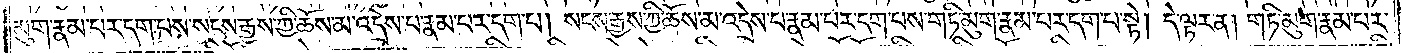མུག་རྣམ་པར་དག་པས་སངས་རྒྱས་ཀྱི་ཆོས་མ་འདྲེས་པ་རྣམ་པར་དག་པ། སངས་རྒྱས་ཀྱི་ཆོས་མ་འདྲེས་པ་རྣམ་པར་དག་པས་གཏི་མུག་རྣམ་པར་དག་པ་སྟེ། དེ་ལྟར་ན། གཏི་མུག་རྣམ་པར་
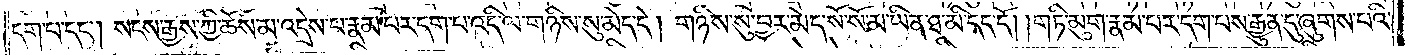དག་པ་དང༌། སངས་རྒྱས་ཀྱི་ཆོས་མ་འདྲེས་པ་རྣམ་པར་དག་པ་འདི་ལ་གཉིས་སུ་མེད་དེ། གཉིས་སུ་བྱར་མེད་སོ་སོ་མ་ཡིན་ཐ་མི་དད་དོ། །གཏི་མུག་རྣམ་པར་དག་པས་རྒྱུན་དུ་ཞུགས་པའི་
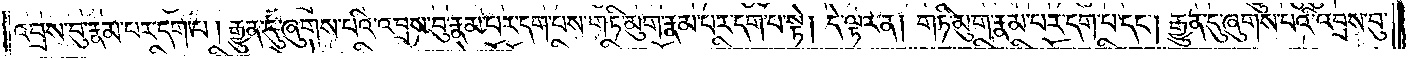འབྲས་བུ་རྣམ་པར་དག་པ། རྒྱུན་དུ་ཞུགས་པའི་འབྲས་བུ་རྣམ་པར་དག་པས་གཏི་མུག་རྣམ་པར་དག་པ་སྟེ། དེ་ལྟར་ན། གཏི་མུག་རྣམ་པར་དག་པ་དང༌། རྒྱུན་དུ་ཞུགས་པའི་འབྲས་བུ་
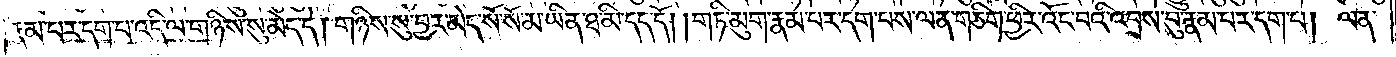རྣམ་པར་དག་པ་འདི་ལ་གཉིས་སུ་མེད་དེ། གཉིས་སུ་བྱར་མེད་སོ་སོ་མ་ཡིན་ཐ་མི་དད་དོ། །གཏི་མུག་རྣམ་པར་དག་པས་ལན་ཅིག་ཕྱིར་འོང་བའི་འབྲས་བུ་རྣམ་པར་དག་པ། ལན་
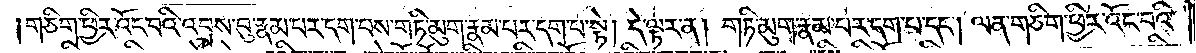གཅིག་ཕྱིར་འོང་བའི་འབྲས་བུ་རྣམ་པར་དག་པས་གཏི་མུག་རྣམ་པར་དག་པ་སྟེ། དེ་ལྟར་ན། གཏི་མུག་རྣམ་པར་དག་པ་དང༌། ལན་གཅིག་ཕྱིར་འོང་བའི་
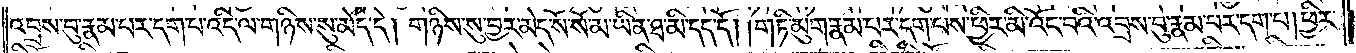འབྲས་བུ་རྣམ་པར་དག་པ་འདི་ལ་གཉིས་སུ་མེད་དེ། གཉིས་སུ་བྱར་མེད་སོ་སོ་མ་ཡིན་ཐ་མི་དད་དོ། །གཏི་མུག་རྣམ་པར་དག་པས་ཕྱིར་མི་འོང་བའི་འབྲས་བུ་རྣམ་པར་དག་པ། ཕྱིར་
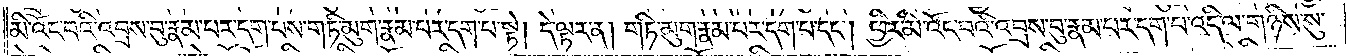མི་འོང་བའི་འབྲས་བུ་རྣམ་པར་དག་པས་གཏི་མུག་རྣམ་པར་དག་པ་སྟེ། དེ་ལྟར་ན། གཏི་མུག་རྣམ་པར་དག་པ་དང༌། ཕྱིར་མི་འོང་བའི་འབྲས་བུ་རྣམ་པར་དག་པ་འདི་ལ་གཉིས་སུ་
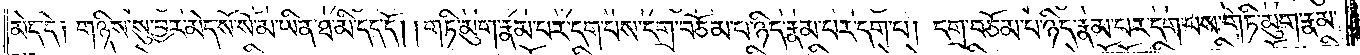མེད་དེ༑ གཉིས་སུ་བྱར་མེད་སོ་སོ་མ་ཡིན་ཐ་མི་དད་དོ། །གཏི་མུག་རྣམ་པར་དག་པས་དགྲ་བཅོམ་པ་ཉིད་རྣམ་པར་དག་པ། དགྲ་བཅོམ་པ་ཉིད་རྣམ་པར་དག་པས་གཏི་མུག་རྣམ་
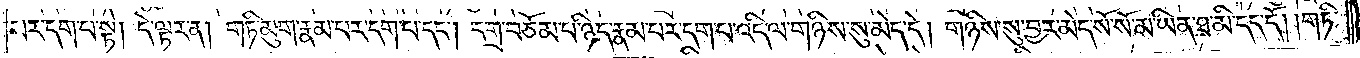པར་དག་པ་སྟེ། དེ་ལྟར་ན། གཏི་མུག་རྣམ་པར་དག་པ་དང༌། དགྲ་བཅོམ་པ་ཉིད་རྣམ་པར་དག་པ་འདི་ལ་གཉིས་སུ་མེད་དེ། གཉིས་སུ་བྱར་མེད་སོ་སོ་མ་ཡིན་ཐ་མི་དད་དོ། །གཏི་
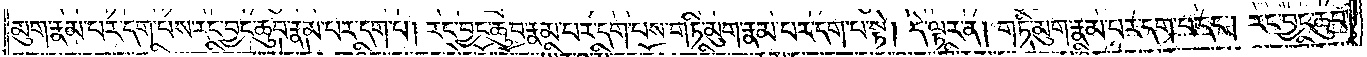མུག་རྣམ་པར་དག་པས་རང་བྱང་ཆུབ་རྣམ་པར་དག་པ། རང་བྱང་ཆུབ་རྣམ་པར་དག་པས་གཏི་མུག་རྣམ་པར་དག་པ་སྟེ། དེ་ལྟར་ན། གཏི་མུག་རྣམ་པར་དག་པ་དང༌། རང་བྱང་ཆུབ་
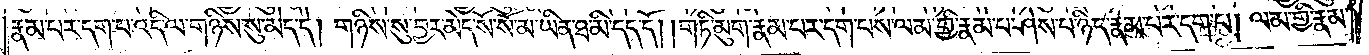རྣམ་པར་དག་པ་འདི་ལ་གཉིས་སུ་མེད་དེ། གཉིས་སུ་བྱར་མེད་སོ་སོ་མ་ཡིན་ཐ་མི་དད་དོ། །གཏི་མུག་རྣམ་པར་དག་པས་ལམ་གྱི་རྣམ་པ་ཤེས་པ་ཉིད་རྣམ་པར་དག་པ། ལམ་གྱི་རྣམ་
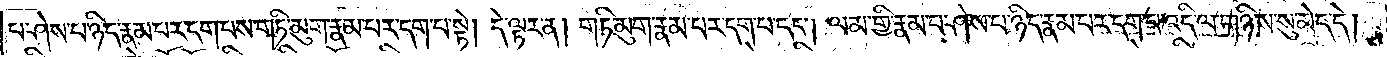པ་ཤེས་པ་ཉིད་རྣམ་པར་དག་པས་གཏི་མུག་རྣམ་པར་དག་པ་སྟེ། དེ་ལྟར་ན། གཏི་མུག་རྣ་པར་དག་པ་དང༌། ལམ་གྱི་རྣམ་པ་ཤེས་པ་ཉིད་རྣམ་པར་དག་པ་འདི་ལ་གཉིས་སུ་མེད་དེ།
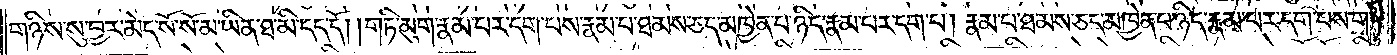གཉིས་སུ་བྱར་མེད་སོ་སོ་མ་ཡིན་ཐ་མི་དད་དོ། །གཏི་མུག་རྣམ་པར་དག་པས་རྣམ་པ་ཐམས་ཅད་མཁྱེན་པ་ཉིད་རྣམ་པར་དག་པ། རྣམ་པ་ཐམས་ཅད་མཁྱེན་པ་ཉིད་རྣམ་པར་དག་པས་གཏི་
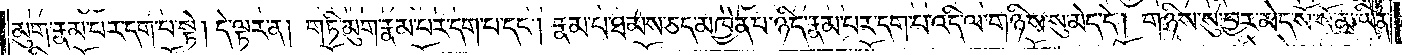མུག་རྣམ་པར་དག་པ་སྟེ། དེ་ལྟར་ན། གཏི་མུག་རྣམ་པར་དག་པ་དང༌། རྣམ་པ་ཐམས་ཅད་མཁྱེན་པ་ཉིད་རྣམ་པར་དག་པ་འདི་ལ་གཉིས་སུ་མེད་དེ། གཉིས་སུ་བྱར་མེད་སོ་སོ་མ་ཡིན་
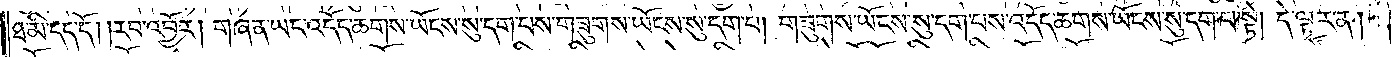ཐ་མི་དད་དོ། །རབ་འབྱོར། གཞན་ཡང་འདོད་ཆགས་ཡོངས་སུ་དག་པས་གཟུགས་ཡོངས་སུ་དག་པ། གཟུགས་ཡོངས་སུ་དག་པས་འདོད་ཆགས་ཡོངས་སུ་དག་པ་སྟེ། དེ་ལྟར་ན།
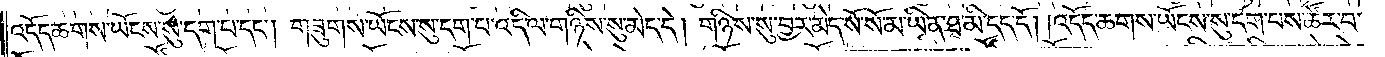འདོད་ཆགས་ཡོངས་སུ་དག་པ་དང༌། གཟུགས་ཡོངས་སུ་དག་པ་འདི་ལ་གཉིས་སུ་མེད་དེ། གཉིས་སུ་བྱར་མེད་སོ་སོ་མ་ཡིན་པ་ཐ་མི་དད་དོ། །འདོད་ཆགས་ཡོངས་སུ་དག་པས་ཚོར་བ་
